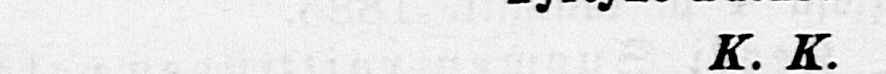K.K.
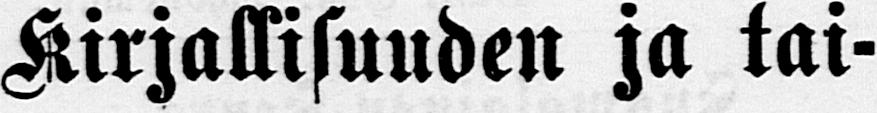Kirjallisuuden ja tai-
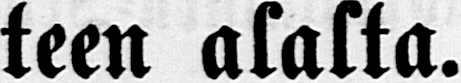teen alalta.
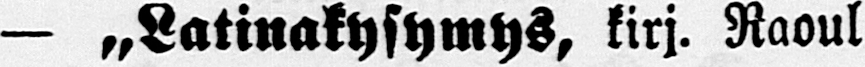— „Latinakysymys, kirj. Raoul
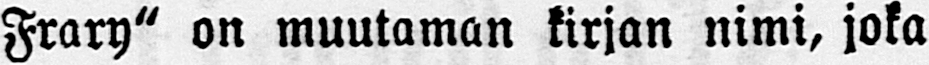Frary" on muutaman kirjan nimi, joka
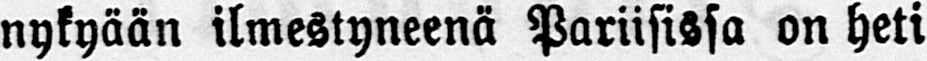nykyään ilmestyneenä Pariisissa on heti
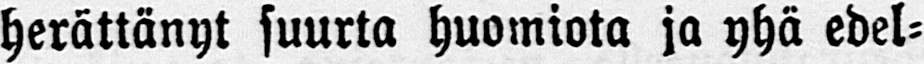herättänyt suurta huomiota ja yhä edel-
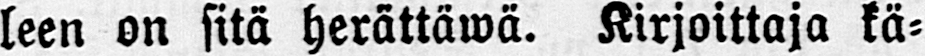leen on sitä herättäwä. Kirjoittaja kä-
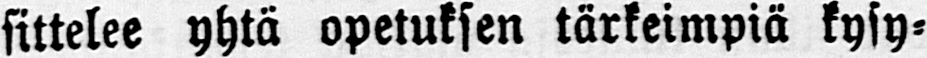sittelee yhtä opetuksen tärkeimpiä kysy-
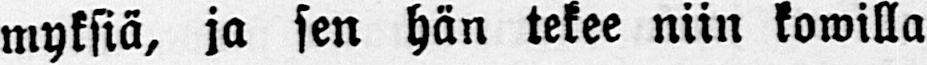myksiä, ja sen hän tekee niin kowilla
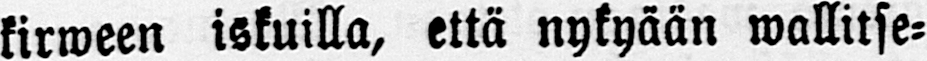kirween iskuilla, että nykyään wallitse-
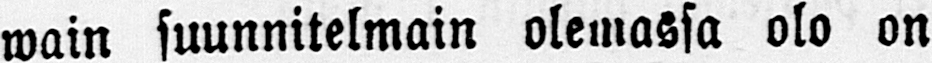wain suunnitelmain olemassa olo on
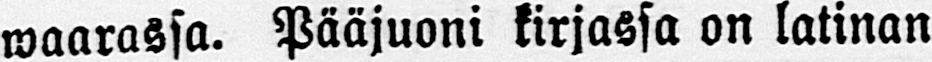waarassa. Pääjuoni kirjassa on latinan
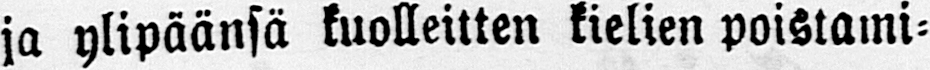ja ylipäänsä kuolleitten kielien poistami-
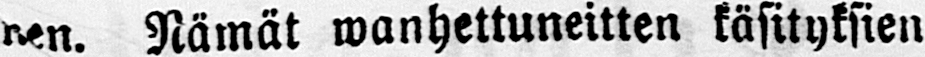nen. Nämät wanhettuneitten käsityksien
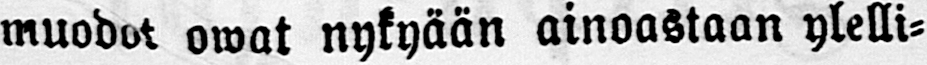muodot owat nykyään ainoastaan ylelli-
